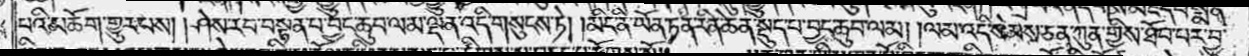བའི་མཆོག་གྱུར་པས། །ཤེས་རབ་བསྟན་པ་བྱང་ཆུབ་ལམ་ལྡན་འདི་གསུངས་ཏེ། །མིང་ནི་ཡོན་ཏན་རིན་ཆེན་སྡུད་པ་བྱང་ཆུབ་ལམ། །ལམ་འདི་སེམས་ཅན་ཀུན་གྱིས་ཐོབ་པར་བྱ་
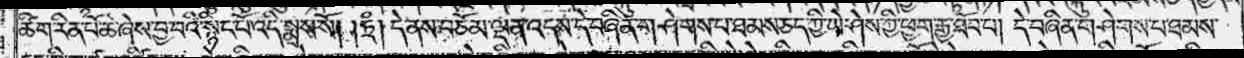ཚིག་རིན་པོ་ཆེ་ཞེས་བྱ་བའི་སྙིང་པོ་འདི་སྨྲས་སོ། །ཏྲཾ། དེ་ནས་བཅོམ་ལྡན་འདས་དེ་བཞིན་གཤེགས་པ་ཐམས་ཅད་ཀྱི་ཡེ་ཤེས་ཀྱི་ཕྱག་རྒྱ་ཐོབ་པ། དེ་བཞིན་གཤེགས་པ་ཐམས་
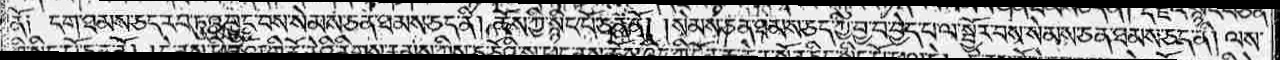ནོ༑ དག་ཐམས་ཅད་རབ་ཏུ་འབྱུང་བས་སེམས་ཅན་ཐམས་ཅད་ནི། ཆོས་ཀྱི་སྙིང་པོ་ཅན་ནོ། །སེམས་ཅན་ཐམས་ཅད་ཀྱི་བྱ་བ་བྱེད་པ་ལ་སྦྱོར་བས་སེམས་ཅན་ཐམས་ཅད་ནི། ལས་
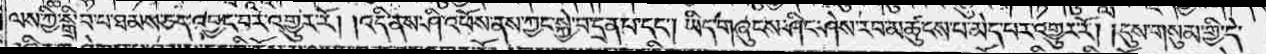ལས་ཀྱི་སྒྲིབ་པ་ཐམས་ཅད་འབྱང་བར་འགྱུར་རོ། །འདི་ནས་ཤི་འཕོས་ནས་ཀྱང་སྐྱེ་བ་དྲན་པ་དང༌། ཡིད་གཞུངས་ཤིང་ཤེས་རབ་མཚུངས་པ་མེད་པར་འགྱུར་རོ། །དུས་གསུམ་གྱི་དེ་
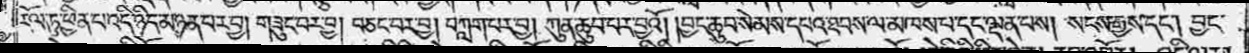རོལ་ཏུ་ཕྱིན་པ་འདི་ཉིད་མཉན་པར་བྱ། གཟུང་བར་བྱ། བཅང་བར་བྱ། བཀླག་པར་བྱ། ཀུན་ཆུབ་པར་བྱའོ། །བྱང་ཆུབ་སེམས་དཔའ་ཐབས་ལ་མཁས་པ་དང་ལྡན་པས། སངས་རྒྱས་དང༌། བྱང་
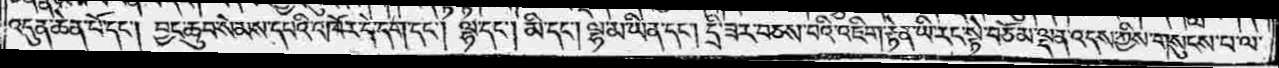འདུན་ཆེན་པོ་དང༌། བྱང་ཆུབ་སེམས་དཔའི་འཁོར་དེ་དག་དང༌། ལྷ་དང༌། མི་དང༌། ལྷ་མ་ཡིན་དང༌། དྲི་ཟར་བཅས་པའི་འཇིག་རྟེན་ཡི་རང་སྟེ་བཅོམ་ལྡན་འདས་ཀྱིས་གསུངས་པ་ལ་
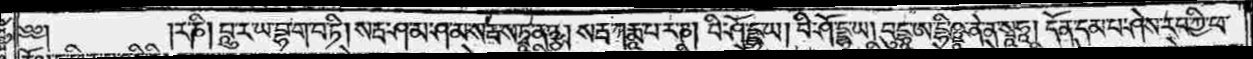༄༅༎ར་ཎི། པཱུ་ར་ཡ་བྷ་ག་བ་ཏི། སརྦ་ཤ་མ་ཤ་མ་སརྦ་ས་ཏྭཱ་ན་ཉྩ། སརྦ་ཀརྨཱ་པ་ར་ཎ། བི་ཤོ་དྡྷ་ཡ། བི་ཤོ་དྡྷ་ཡ། བུདྷཱ་ཨ་དྷི་ཥྛཱ་ནེ་ན་སྭཱཧཱ། དོན་དམ་པ་ཤེས་རབ་ཀྱི་ཕ་
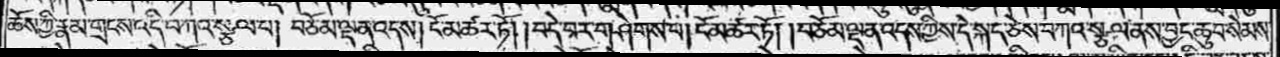ཆོས་ཀྱི་རྣམ་གྲངས་འདི་བཀའ་སྩལ་པ། བཅོམ་ལྡན་འདས། ངོ་མཚར་ཏོ། །བདེ་བར་གཤེགས་པ། ངོ་མཚར་ཏོ། །བཅོམ་ལྡན་འདས་ཀྱིས་དེ་སྐད་ཅེས་བཀའ་སྩལ་ནས་བྱང་ཆུབ་སེམས་
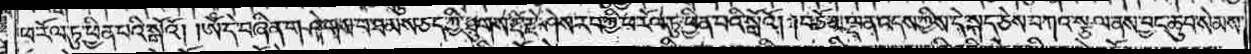ཕ་རོལ་ཏུ་ཕྱིན་པའི་སྒོའོ། །ཨོཾ་དེ་བཞིན་གཤེགས་པ་ཐམས་ཅད་ཀྱི་ཐུགས་རྡོ་རྗེ་ཤེས་རབ་ཀྱི་ཕ་རོལ་ཏུ་ཕྱིན་པའི་སྒོའོ། །བཅོམ་ལྡན་འདས་ཀྱིས་དེ་སྐད་ཅེས་བཀའ་སྩལ་ནས་བྱང་ཆུབ་སེམས་
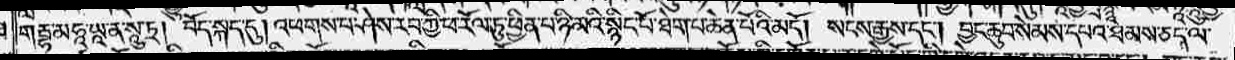གརྦྷ་མཧཱ་ཡཱ་ན་སཱུ་ཏྲ། བོད་སྐད་དུ། འཕགས་པ་ཤེས་རབ་ཀྱི་ཕ་རོལ་ཏུ་ཕྱིན་པ་ཉི་མའི་སྙིང་པོ་ཐེག་པ་ཆེན་པོའི་མདོ། སངས་རྒྱས་དང༌། བྱང་ཆུབ་སེམས་དཔའ་ཐམས་ཅད་ལ་
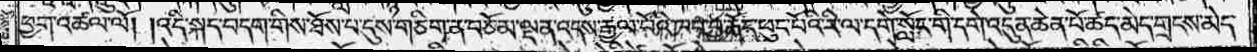ཕྱག་འཚལ་ལོ། །འདི་སྐད་བདག་གིས་ཐོས་པ་དུས་གཅིག་ན་བཅོམ་ལྡན་འདས་རྒྱལ་པོའི་ཁབ་བྱ་རྒོད་ཕུང་པོའི་རི་ལ་དགེ་སློང་གི་དགེ་འདུན་ཆེན་པོ་ཚད་མེད་གྲངས་མེད་
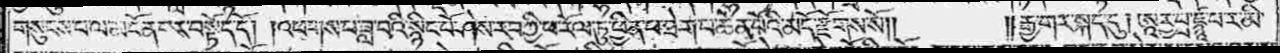གསུངས་པ་ལ་མངོན་པར་བསྟོད་དོ། །འཕགས་པ་ཟླ་བའི་སྙིང་པོ་ཤེས་རབ་ཀྱི་ཕ་རོལ་ཏུ་ཕྱིན་པ་ཐེག་པ་ཆེན་པོའི་མདོ་རྫོགས་སོ༎         ༎རྒྱ་གར་སྐད་དུ། ཨཱཪྱ་པྲ་ཛྙཱ་པ་ར་མི་
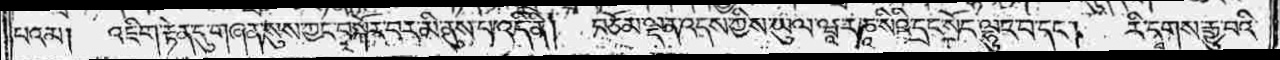པའམ། འཇིག་རྟེན་དུ་གཞན་སུས་ཀྱང་བསྐོར་བར་མི་ནུས་པ་འདི་ནི།བཅོམ་ལྡན་འདས་ཀྱིས་ཡུལ་ཝཱ་ར་ཎཱ་སིའི་དྲང་སྲོང་ལྷུང་བ་དང༌།རི་དྭགས་རྒྱུ་བའི་
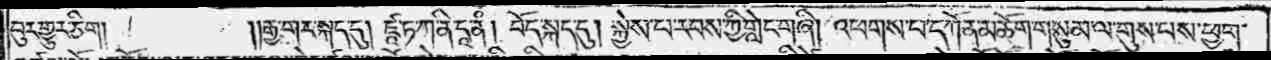བུར་གྱུར་ཅིག།     ༎སྐྱེས་པ་རབས་ཀྱི་གླེང་གཞི། རྒྱ་གར་སྐད་དུ། ཛཱ་ཏ་ཀ་ནི་དཱ་ནཾ། བོད་སྐད་དུ། སྐྱེས་པ་རབས་ཀྱི་གླེང་གཞི། འཕགས་པ་དཀོན་མཆོག་གསུམ་ལ་གུས་པས་ཕྱག་
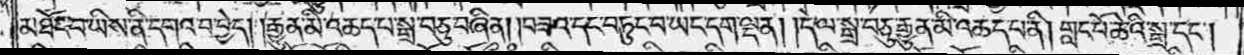མཐོང་བ་ཡིས་ནི་དགའ་བ་བྱེད། །རྒྱུན་མི་འཆད་པ་སྒྲ་བཅུ་བཞིན། །བཟའ་དང་བཏུང་བ་ཡང་དག་ལྡན། །དེ་ལ་སྒྲ་བཅུ་རྒྱུན་མི་འཆད་པ་ནི། གླང་པོ་ཆེའི་སྒྲ་དང༌།
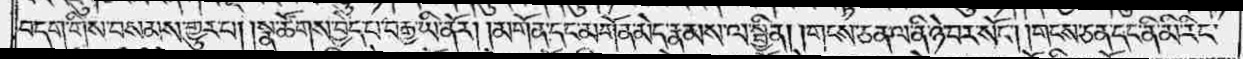བདག་གིས་བསམས་གྱུར་པ། །སྣ་ཚོགས་བྱེད་པ་བརྒྱ་ཡི་ནོར། །མགོན་དང་མགོན་མེད་རྣམས་ལ་སྦྱིན། །གངས་ཅན་ལ་ནི་ཉེ་བར་སོང༌། །གངས་ཅན་དང་ནི་མི་རིང་
